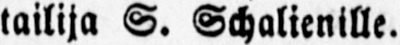tailija S. Schalienille.
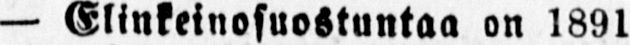— Elinkeinosuostuntaa on 1891
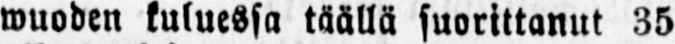wuoden kuluessa täällä suorittanut 35
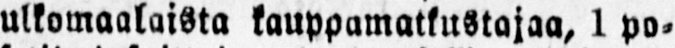ulkomaalaista kauppamatkustajaa, 1 po-
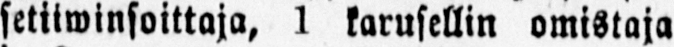setiiwinsoittaja, 1 karusellin omistaja
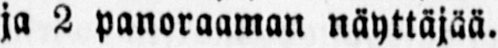ja 2 panoraaman näyttäjää.
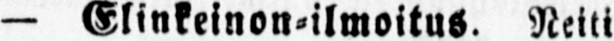— Elinkeinon-ilmoitus. Neiti
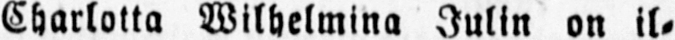Charlotta Wilhelmina Julin on il-
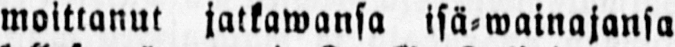moittanut jatkawansa isä-wainajansa
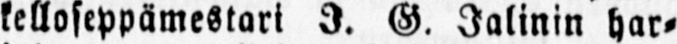kelloseppämestari I. G. Jalinin har-
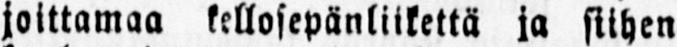joittamaa kellosepänliikettä ja siihen
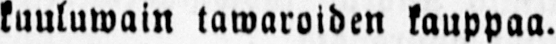kuuluwain tawaroiden kauppaa.
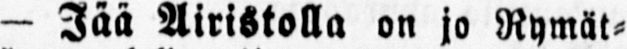— Jää Airistolla on jo Rymät-
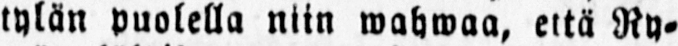tylän puolella niin wahwaa, eitä Ry-
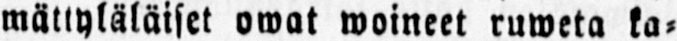mättyläläiset owat woineet ruweta ka-
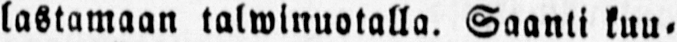lastamaan talwinuotalla. Saanti kuu-
